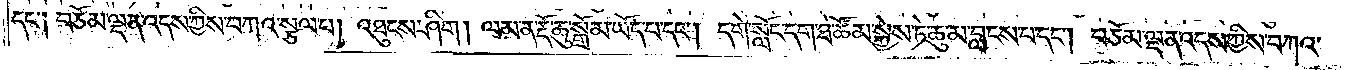དང༌༑ བཅོམ་ལྡན་འདས་ཀྱིས་བཀའ་སྩལ་པ། འཐུངས་ཤིག །ལམ་ན་རྡོ་ཆུ་སྒྲོམ་ཡོད་པ་དང༌། དགེ་སློང་དག་ཐེ་ཚོམ་སྐྱེས་ཏེ་ཆུ་མ་བླངས་པ་དང༌། བཅོམ་ལྡན་འདས་ཀྱིས་བཀའ་
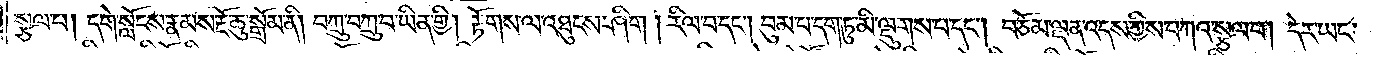སྩལ་པ། དགེ་སློང་རྣམས་རྔོ་ཆུ་སྒྲོམ་ནི། བཀྲུ་བཀྲུ་བ་ཡིན་གྱི། རྟོགས་ལ་འཐུངས་ཤིག །རིལ་བ་དང༌། བུམ་པ་དག་ཏུ་མི་ལྡུགས་པ་དང༌། བཅོམ་ལྡན་འདས་ཀྱིས་བཀའ་སྩལ་པ། དེར་ཡང་
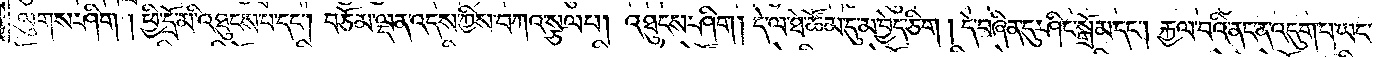ལུགས་ཤིག །ཕྱི་དྲོ་མི་འཐུངས་པ་དང༌། བཅོམ་ལྡན་འདས་ཀྱིས་བཀའ་སྩལ་པ། འཐུངས་ཤིག །དེ་ལ་ཐེ་ཚོམ་དུ་མ་བྱེད་ཅིག །དེ་བཞིན་དུ་ཤིང་སྒྲོམ་དང༌། རྐྱལ་བའི་ནང་ན་འདུག་པ་ཡང་
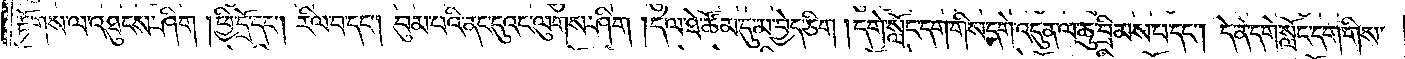རྟོགས་ལ་འཐུངས་ཤིག །ཕྱི་དྲོ་དང༌། རིལ་བ་དང༌། བུམ་པའི་ནང་དུའང་ལུགས་ཤིག །དེ་ལ་ཐེ་ཚོམ་དུ་མ་བྱེད་ཅིག །དགེ་སློང་དག་གིས་དགེ་འདུན་ལ་ཆུ་བྲིམས་པ་དང༌། དེ་ན་དགེ་སློང་དག་གིས་
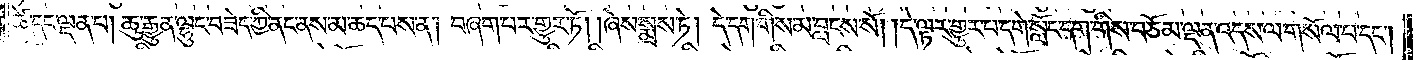ཚེ་དང་ལྡན་པ། ཆུ་རྒྱུན་ལྷུང་བཟེད་ཀྱི་ནང་ནས་མ་ཆད་པས་ན། བཞག་པར་གྱུར་ཏོ། །ཞེས་སྨྲས་ཏེ། དེ་དག་གིས་མ་བླངས་སོ། །དེ་ལྟར་གྱུར་པ་དགེ་སློང་དག་གིས་བཅོམ་ལྡན་འདས་ལ་གསོལ་པ་དང༌།
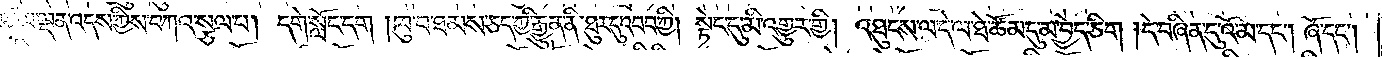བཅོམ་ལྡན་འདས་ཀྱིས་བཀའ་སྩལ་པ། དགེ་སློང་དག །ཁུ་བ་ཐམས་ཅད་ཀྱི་རྒྱུན་ནི་ཐུར་དུ་འབབ་ཀྱི། སྟེང་དུ་མི་འགྱུར་གྱི། འཐུངས་ལ་དེ་ལ་ཐེ་ཚོམ་དུ་མ་བྱེད་ཅིག །དེ་བཞིན་དུ་འོ་མ་དང༌། ཞོ་དང༌།
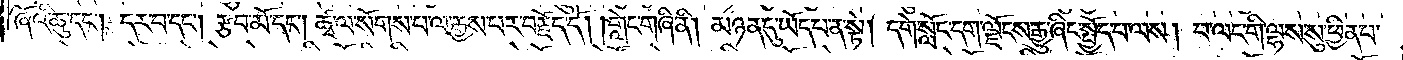ཞོའི་ཆུ་དང༌། དར་བ་དང༌། རྩབ་མོ་དང༌། ཚྭ་ལ་སོགས་པ་ལ་རྒྱས་པར་བརྗོད་དོ། །གླེང་གཞི་ནི། མཉན་དུ་ཡོད་པ་ན་སྟེ། དགེ་སློང་དག་ལྗོངས་རྒྱུ་ཞིང་སྤྱོད་པ་ལས། བ་ལང་གི་ལྷས་སུ་ཕྱིན་པ་
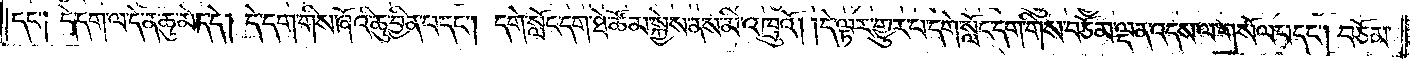དང༌། དེ་དག་ལ་དེ་ན་ཆུ་མེད་དེ། དེ་དག་གིས་ཞོའི་ཆུ་བྱིན་པ་དང༌། དགེ་སློང་དག་ཐེ་ཚོམ་སྐྱེས་ནས་མི་འཁྲུའོ། །དེ་ལྟར་གྱུར་པ་དགེ་སློང་དག་གིས་བཅོམ་ལྡན་འདས་ལ་གསོལ་བ་དང༌། བཅོམ་
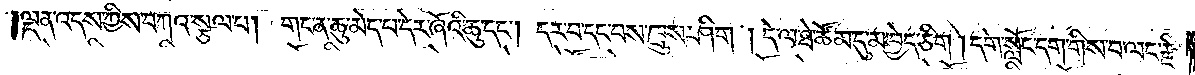ལྡན་འདས་ཀྱིས་བཀའ་སྩལ་པ། གང་ན་ཆུ་མེད་པ་དེར་ཞོའི་ཆུ་དང༌། དར་བ་དང་བས་ཁྲུས་ཤིག །དེ་ལ་ཐེ་ཚོམ་དུ་མ་བྱེད་ཅིག །དགེ་སློང་དག་གིས་བ་ལང་རྫི་
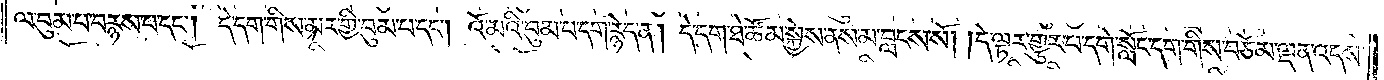ལ་བུམ་པ་བརྙས་པ་དང༌། དེ་དག་གིས་མར་གྱི་བུམ་པ་དང༌། འོ་མའི་བུམ་པ་དག་རྙེད་ན། དེ་དག་ཐེ་ཚོམ་སྐྱེས་ནས་མ་བླངས་སོ། །དེ་ལྟར་གྱུར་པ་དགེ་སློང་དག་གིས་བཅོམ་ལྡན་འདས་
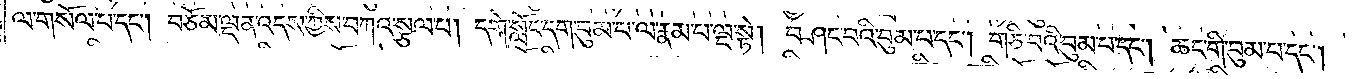ལ་གསོལ་པ་དང༌། བཅོམ་ལྡན་འདས་ཀྱིས་བཀའ་སྩལ་པ། དགེ་སློང་དག་བུམ་པ་ལ་རྣམ་པ་ལྔ་སྟེ། བཤང་བའི་བུམ་པ་དང༌། གཅི་བའི་བུམ་པ་དང༌། ཆང་གི་བུམ་པ་དང༌།
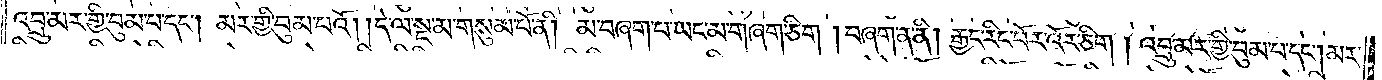འབྲུ་མར་གྱི་བུམ་པ་དང༌། མར་གྱི་བུམ་པའོ། །དེ་ལ་སྔ་མ་གསུམ་པོ་ནི། མ་བཞག་པ་ཡང་མ་གཞག་ཅིག །བཞག་ན་ནི། རྒྱང་རིང་པོར་འོར་ཅིག །འབྲུ་མར་གྱི་བུམ་པ་དང༌། མར་
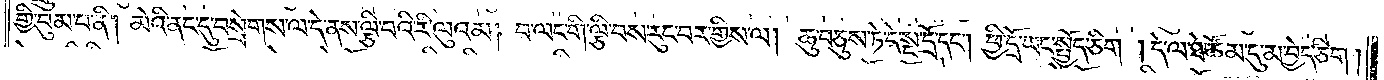གྱི་བུམ་པ་ནི། མེའི་ནང་དུ་བསྲེགས་ལ་དེ་ནས་ལྕི་བའི་རི་ལུའམ། བ་ལང་གི་ལྕི་བས་རུང་བར་གྱིས་ལ། ཆུ་བཅུས་ཏེ་དེ་སྔ་དྲོ་དང༌། ཕྱི་དྲོ་ཡང་སྤྱོད་ཅིག །དེ་ལ་ཐེ་ཚོམ་དུ་མ་བྱེད་ཅིག།
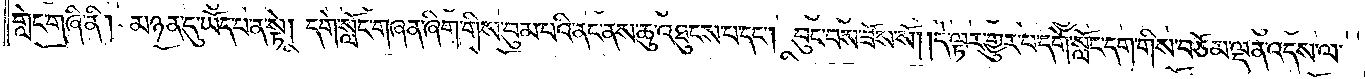གླེང་གཞི་ནི། མཉན་དུ་ཡོད་པ་ན་སྟེ། དགེ་སློང་གཞན་ཞིག་གིས་བུམ་པའི་ནང་ནས་ཆུ་འཐུངས་པ་དང༌། བུང་བས་ཟོས་སོ། །དེ་ལྟར་གྱུར་པ་དགེ་སློང་དག་གིས་བཅོམ་ལྡན་འདས་ལ་
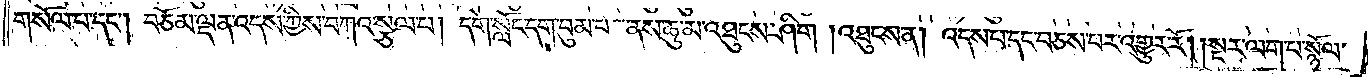གསོལ་པ་དང༌། བཅོམ་ལྡན་འདས་ཀྱིས་བཀའ་སྩལ་པ། དགེ་སློང་དག་བུམ་པ་ནས་ཆུ་མ་འཐུངས་ཤིག །འཐུངས་ན། འདས་པ་དང་བཅས་པར་འགྱུར་རོ། །སྔར་ལག་པ་སྙོལ་
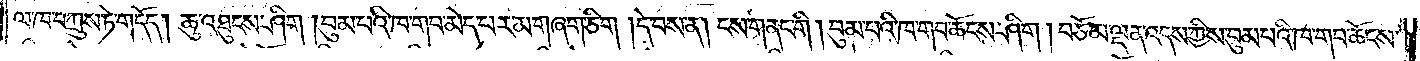ལ་ཁ་བཀྲུས་ཏེ་གདོད། ཆུ་འཐུངས་ཤིག །བུམ་པའི་ཁ་གབ་མེད་པར་མ་གཞག་ཅིག །དེ་བས་ན། ངས་གནང་གི །བུམ་པའི་ཁ་གབ་ཆོངས་ཤིག །བཅོམ་ལྡན་འདས་ཀྱིས་བུམ་པའི་ཁ་གབ་ཆོངས་
